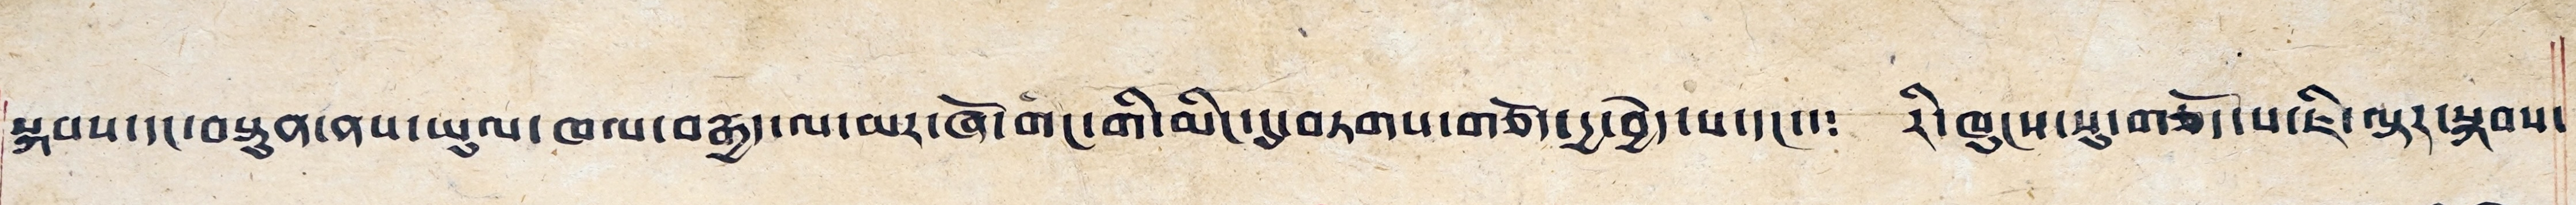སྐབས་དང་བསྟུན་ནས་ཡུལ་ཁལ་བརྒྱད་ལ་མར་ཞོ་གང་གི་མིང་དུ་བཏགས་གཅོད་དྱ་བྱེད་པ་དང་༴ རི་ཁུངས་སུ་གཅོད་པ་ཇི་ལྟར་སྐབས་
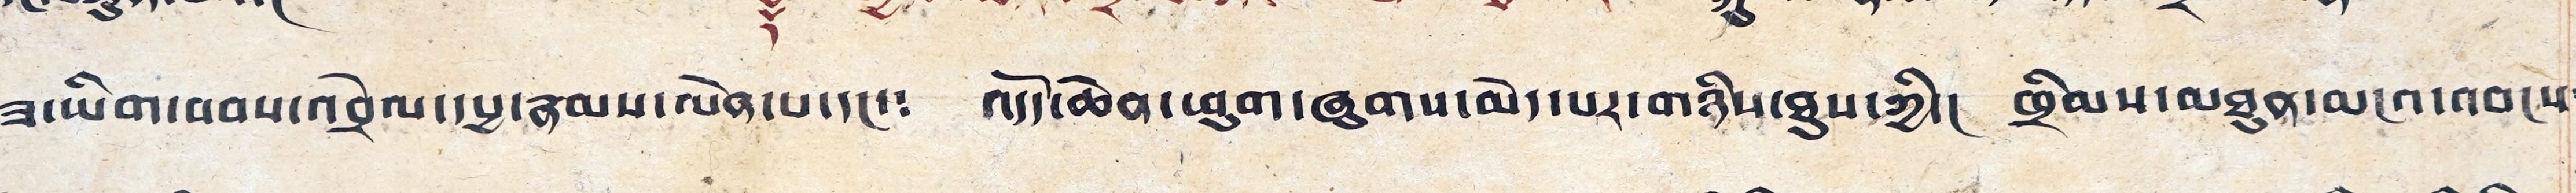ཟ་ཡིག་བབས་འབྲེལ་དཔྱ་རྣམས་ལེན་པ་དང་༴ འདོད་ཆེན་ཕུག་ཞུགས་མེད་པར་གཉིས་ཐུས་ཀྱི་། ཁྲིམས་མཐུན་མངའ་འབངས༴
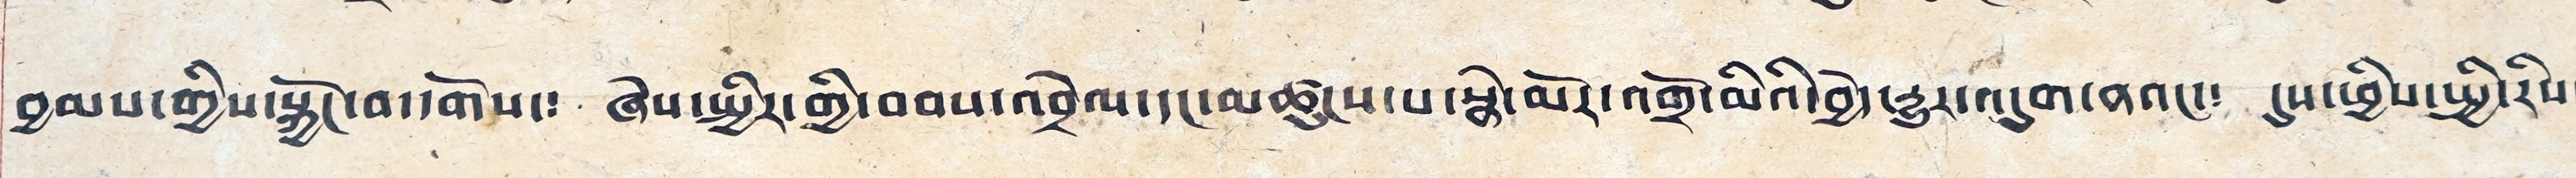བྱམས་གྱིས་སྐྱོང་བ་དགོས་༴ ཞེས་སྤྱིར་གྱི་བབས་འབྲེལ་དང་མཚུངས་པ་སྣེ་མོར་འགྲོ་མིའི་བྱེད་རྒྱུར་འདུག་ནའང་༴ དུས་ཕྱིས་སྤྱི་རིས་
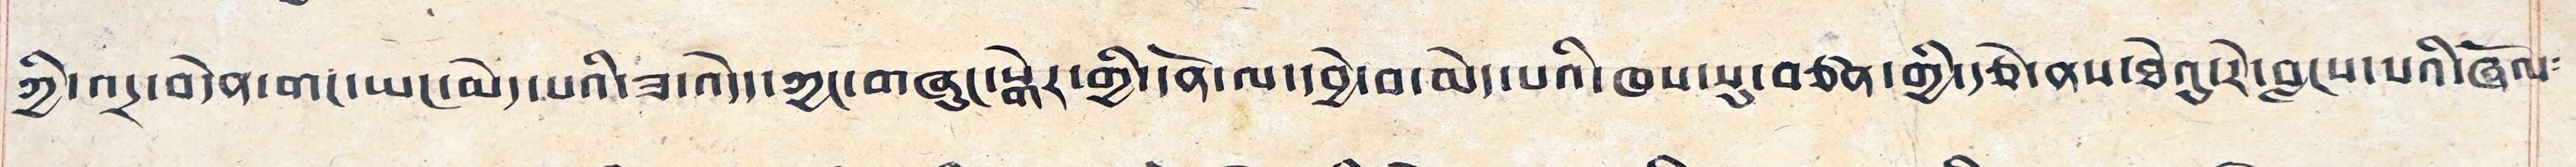ཀྱི་འདྲ་བདེན་གང་ཡང་མེད་པའི་ཟ་འདོད་ཀྱང་གཞུང་སྒེར་གྱི་དོན་ལ་དབྱེ་བ་མེད་པའི་ཁས་སུ་བཙན་གྱི་རྩེ་ནས་ཐེའུ་རེ་བླངས་པའི་ཞོལ༴
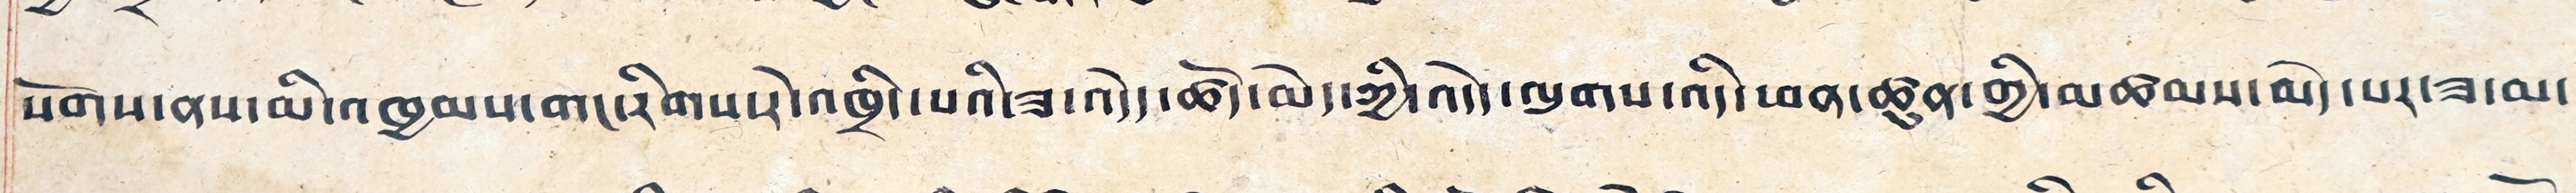སོགས་ནས་མི་འཁྱམས་གང་རིགས་རེ་འཁྲིད་པའི་ཟ་འདོད་ཚོད་མེད་ཀྱི་འདོད་ལུགས་འདི་ཕན་ཚུན་གྱི་མཚམས་མེད་པར་ཟ་མ་
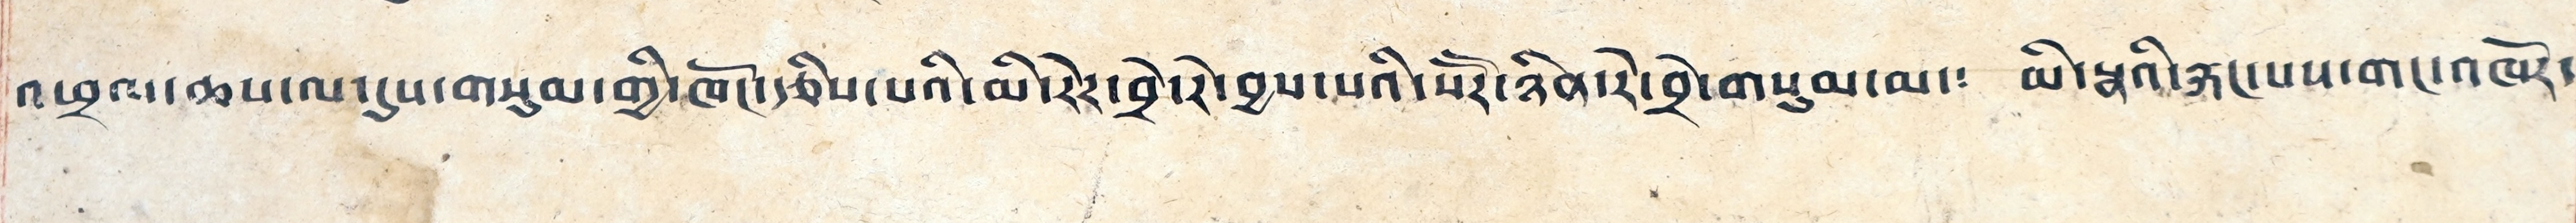འཕྲལ་ཆས་ལ་དུས་གསུམ་གྱི་ཁོང་རྩིས་པའི་མི་རེར་བྲེ་རེ་བྱས་པའི་སོ་སོར་ཉིན་རེ་བྲེ་གསུམ་མ་༴ མི་སྣའི་རྐང་པས་གང་འཁོར་
